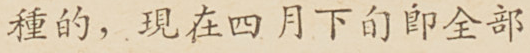種的，現在四月下旬卽全部
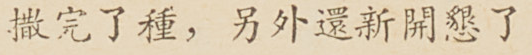撒完了種，另外還新開墾了
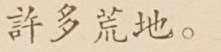許多荒地。
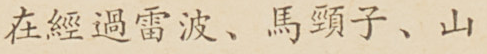在經過雷波、馬頸子、山
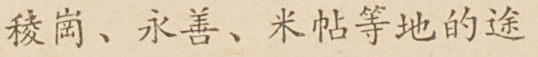稜崗、永善、米帖等地的途
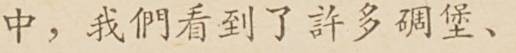中，我們看到了許多碉堡、
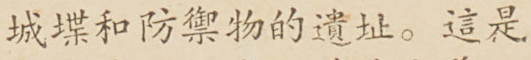城堞和防禦物的遺址。這是
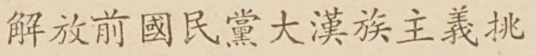解放前國民黨大漢族主義挑
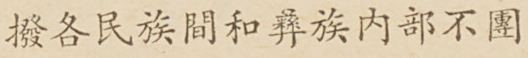撥各民族間和彝族內部不團
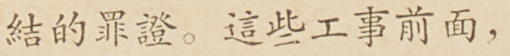結的罪證。這些工事前面，
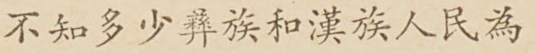不知多少彝族和漢族人民為
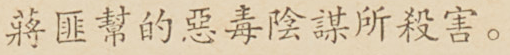將匪幫的惡毒陰謀所殺害。
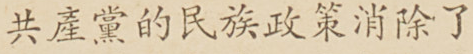共產黨的民族政策消除了
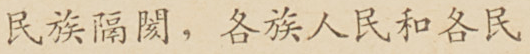民族隔閡，各族人民和各民
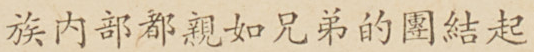族內部都親如兄弟的團結起
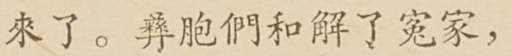來了。彝胞們和解了冤家，
